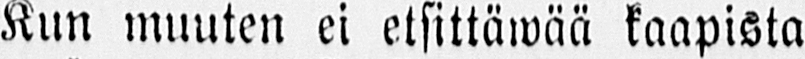Kun muuten ei etsittäwää kaapista
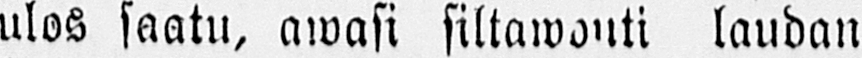ulos saatu, awasi siltawouti laudan
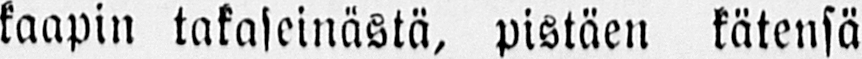kaapin takaseinästä, pistäen kätensä
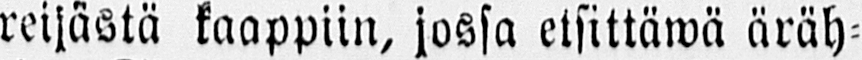reijästä kaappiin, jossa etsittäwä äräh-
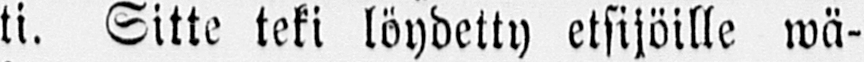ti. Sitte teki löydetty etsijöille wä-
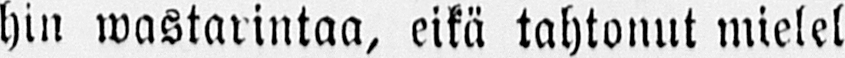hin wastarintaa, eikä tahtonut mielel-
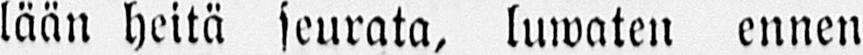lään heitä seurata, luwaten ennen
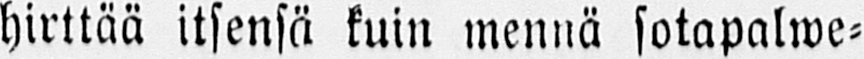hirttää itsensä kuin mennä sotapalwe-
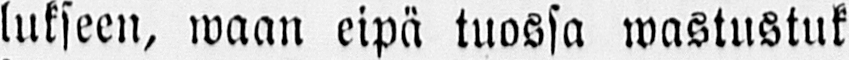lukseen, waan eipä tuossa wastustuk
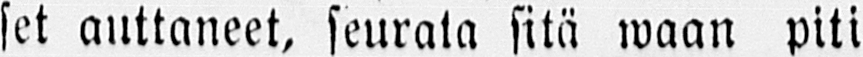set auttaneet, seurata sitä waan piti
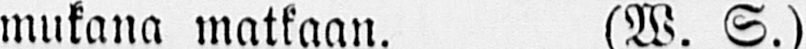mukana matkaan. (W. S.)
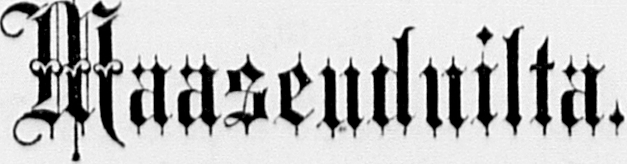Maaseuduilta.
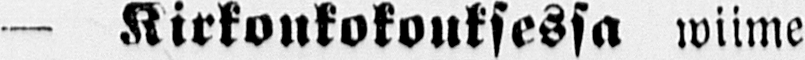— Kirkonkokouksessa wiime
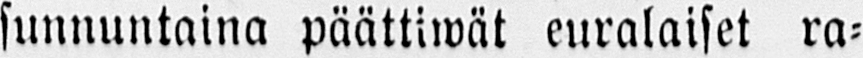sunnuntaina päättiwät euralaiset ra-
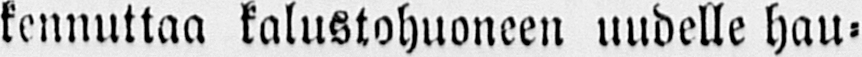kennuttaa kalustohuoneen uudelle hau-
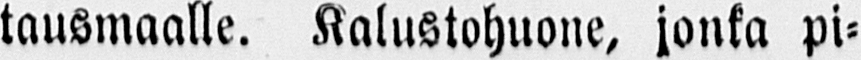tausmaalle. Kalustohuone, jonka pi-
